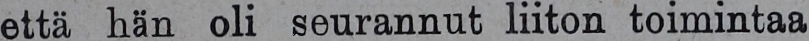että hän oli seurannut liiton toimintaa
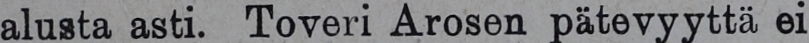alusta asti. Toveri Arosen pätevyyttä ei
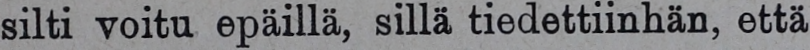silti voitu epäillä, sillä tiedettiinhän, että
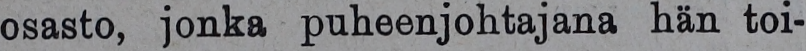osasto, jonka puheenjohtajana hän toi-
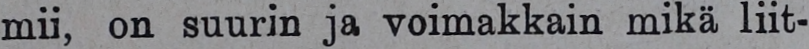mii, on suurin ja voimakkain mikä liit-
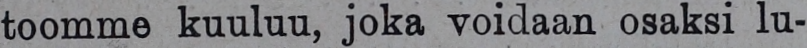toomme kuuluu, joka voidaan osaksi lu-
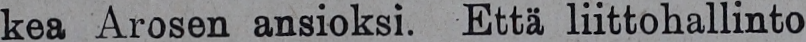kea Arosen ansioksi. Että liittohallinto
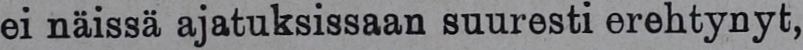ei näissä ajatuksissaan suuresti erehtynyt,
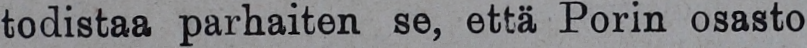todistaa parhaiten se, että Porin osasto
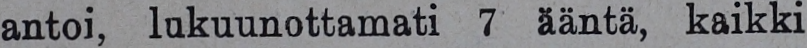antoi, lukuunottamati 7 ääntä, kaikki
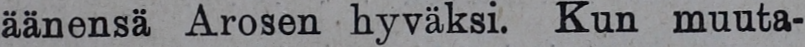äänensä Arosen hyväksi. Kun muuta-
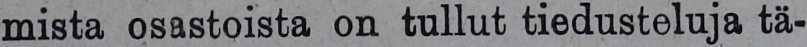mista osastoista on tullut tiedusteluja tä-
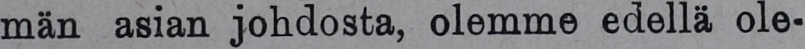män asian johdosta, olemme edellä ole-
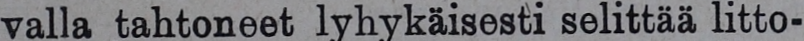valla tahtoneet lyhykäisesti selittää litto-
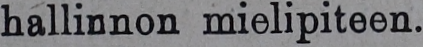hallinnon mielipiteen.
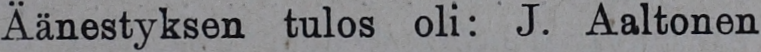Äänestyksen tulos oli: J. Aaltonen
